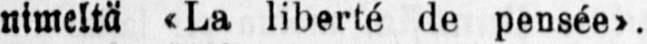nimeltä «La liberté de pensée».
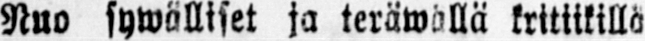Nuo sywälliset ja teräwällä kritiikillä
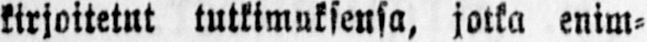kirjoitetut tutkimuksensa, jalka enim-
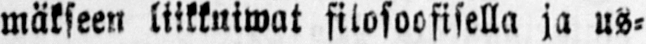mäkseen liikkuiwat filosoofisella ja us-
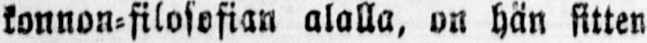konnon-filosofian alalla, on hän sitten
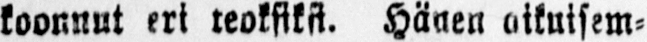koonnut eri teoksiksi. Hänen aikuisem-
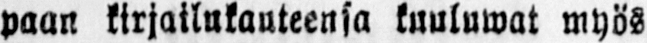paan kirjailukauteensa kuuluwat myös
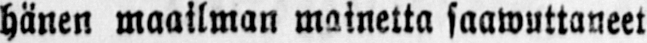hänen maailman mainetta saawuttaneet
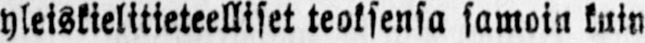yleiskielitieteelliset teoksensa samoin kuin
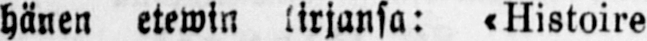hänen etewin kirjansa: «Histoire
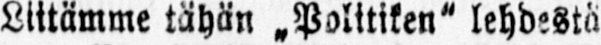Liitämme tähän „Politiken" lehdestä
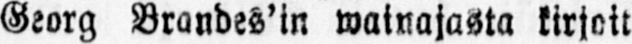Georg Brandes'in wainajasta kirjoit
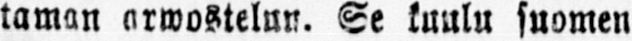taman arwostelun. Se kuulu suomen
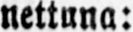nettuna:
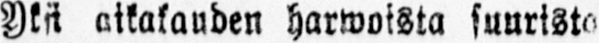Yksi aikakauden harwoista suurista
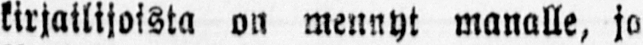kirjailijoista on mennyt manalle, jo
